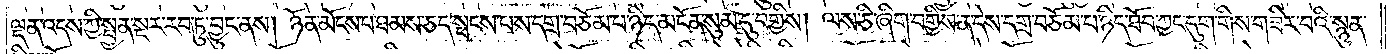ལྡན་འདས་ཀྱི་སྤྱན་སྔར་རབ་ཏུ་བྱུང་ནས། ཉོན་མོངས་པ་ཐམས་ཅད་སྤངས་པས་དགྲ་བཅོམ་པ་ཉིད་མངོན་སུམ་དུ་བགྱིས། ལས་ཅི་ཞིག་བགྱིས་ན་དེས་དགྲ་བཅོམ་པ་ཉིད་ཐོབ་ཀྱང་དུག་གིས་གཟིར་བའི་སྙུན་
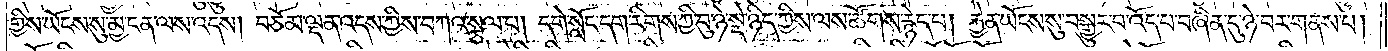གྱིས་ཡོངས་སུ་མྱ་ངན་ལས་འདས། བཅོམ་ལྡན་འདས་ཀྱིས་བཀའ་སྩལ་པ། དགེ་སློང་དག་རིགས་ཀྱི་བུ་ཉེ་སྡེ་ཉིད་ཀྱིས་ལས་ཚོགས་རྙེད་པ། རྐྱེན་ཡོངས་སུ་བསྒྱུར་བ་འོད་པ་བཞིན་དུ་ཉེ་བར་གནས་པ།
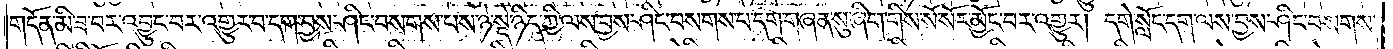གདོན་མི་ཟ་བར་འབྱུང་བར་འགྱུར་བ་དག་བྱས་ཤིང་བསགས་པས་ཉེ་སྡེ་ཉིད་ཀྱི་ལས་བྱས་ཤིང་བསགས་པ་དག་གཞན་སུ་ཞིག་གིས་སོ་སོར་མྱོང་བར་འགྱུར། དགེ་སློང་དག་ལས་བྱས་ཤིང་བསགས་
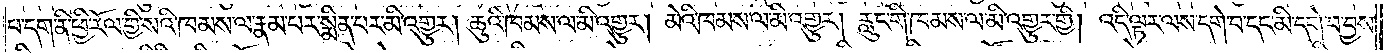པ་དག་ནི་ཕྱི་རོལ་གྱི་སའི་ཁམས་ལ་རྣམ་པར་སྨིན་པར་མི་འགྱུར། ཆུའི་ཁམས་ལ་མི་འགྱུར། མེའི་ཁམས་ལ་མི་འགྱུར། རླུང་གི་ཁམས་ལ་མི་འགྱུར་གྱི། འདི་ལྟར་ལས་དགེ་བ་དང་མི་དགེ་བ་བྱས་
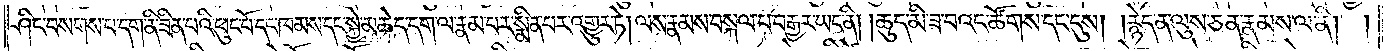ཤིང་བསགས་པ་དག་ནི་ཟིན་པའི་ཕུང་པོ་དང་ཁམས་དང་སྐྱེ་མཆེད་དག་ལ་རྣམ་པར་སྨིན་པར་འགྱུར་ཏེ། ལས་རྣམས་བསྐལ་པ་བརྒྱར་ཡང་ནི། །ཆུད་མི་ཟ་བའང་ཚོགས་དང་དུས། །རྙེད་ན་ལུས་ཅན་རྣམས་ལ་ནི། །
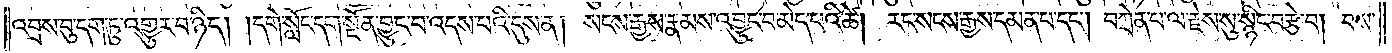འབྲས་བུ་དག་ཏུ་འགྱུར་པ་ཉིད། །དགེ་སློང་དག་སྔོན་བྱུང་བ་འདས་པའི་དུས་ན། སངས་རྒྱས་རྣམས་འབྱུང་བ་མེད་པའི་ཚེ། རང་སངས་རྒྱས་དམན་པ་དང༌། བཀྲེན་པ་ལ་རྗེས་སུ་སྙིང་བརྩེ་བ། བས་
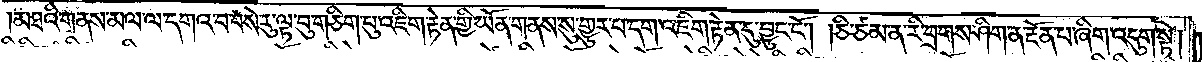མཐའི་གནས་མལ་ལ་དགའ་བ་བསེ་རུ་ལྟ་བུ་གཅིག་པུ་འཇིག་རྟེན་གྱི་ཡོན་གནས་སུ་གྱུར་པ་དག་འཇིག་རྟེན་དུ་བྱུང་ངོ༌། །ཅི་ཙམ་ན་རི་བྲགས་ཤིག་ན་རྔོན་པ་ཞིག་འདུག་སྟེ།
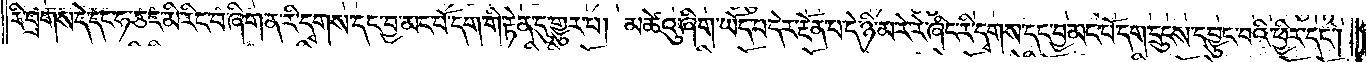རི་བྲགས་དེ་དང་ཧ་ཅང་མི་རིང་བ་ཞིག་ན་རི་དྭགས་དང་བྱ་མང་པོ་དག་གི་རྟེན་དུ་གྱུར་པ། མཚེའུ་ཞིག་ཡོད་པ་དེར་རྔོན་པ་དེ་ཉི་མ་རེ་རེ་ཞིང་རི་དྭགས་དང་བྱ་མང་པོ་དག་དྲུངས་དབྱུང་བའི་ཕྱིར་དང༌།
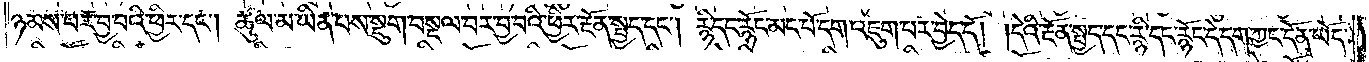ཉམས་པར་བྱ་བའི་ཕྱིར་དང༌། ཚུལ་མ་ཡིན་པས་སྡུག་བསྔལ་བར་བྱ་བའི་ཕྱིར་རྔོན་སྤྱད་དང༌། རྙི་དང་རྙོང་མང་པོ་དག་འཇུག་པར་བྱེད་དོ། །དེའི་རྔོན་སྤྱད་དང་རྙི་དང་རྙིང་དེ་དག་ཀྱང་དོན་ཡོད་
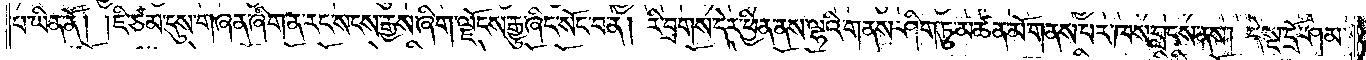པ་ཡིན་ནོ། །ཇི་ཙམ་དུས་གཞན་ཞིག་ན་རང་སངས་རྒྱས་ཞིག་ལྗོངས་རྒྱུ་ཞིང་སོང་བ་ན། རི་བྲགས་དེར་ཕྱིན་ནས་ལྷའི་གནས་ཤིག་ཏུ་མཚན་མོ་གནས་པར་ཁས་བླངས་ནས། དེ་སྔ་དྲོ་ཤམ་
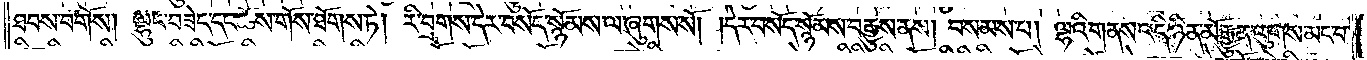ཐབས་བགོས། ལྷུང་བཟེད་དང་ཆོས་གོས་ཐོགས་ཏེ། རི་བྲགས་དེར་བསོད་སྙོམས་ལ་ཞུགས་སོ། །དེར་བསོད་སྙོམས་བརྒྱུས་ནས། བསམས་པ། ལྷའི་གནས་འདི་ཉིན་མོ་རྒྱུན་ལུགས་མང་བ་
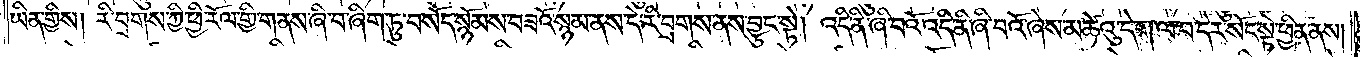ཡིན་གྱིས། རི་བྲགས་ཀྱི་ཕྱི་རོལ་གྱི་གནས་ཞིག་བ་ཞིག་ཏུ་བསོད་སྙོམས་བཟའོ་སྙམ་ནས་དེ་རི་བྲགས་ནས་བྱུང་སྟེ། འདི་ནི་ཞི་བའོ་འདི་ནི་ཞི་བའོ་ཞེས་མཚེའུ་དེ་ག་ལ་བ་དེར་སོང་སྟེ་ཕྱིན་ནས།
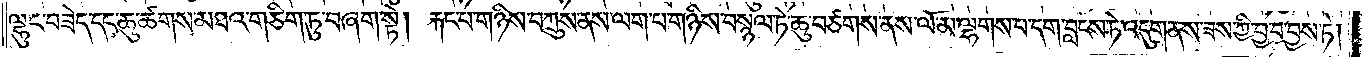ལྷུང་བཟེད་དང་ཆུ་ཚགས་མཐའ་གཅིག་ཏུ་བཞག་སྟེ། རྐང་པ་གཉིས་པ་བཀྲུས་ནས་ལག་པ་གཉིས་བསྙལ་ཏེ་ཆུ་བཙགས་ནས་ལོ་མ་ལྷགས་པ་དག་བླངས་ཏེ་འདུག་ནས་ཟས་ཀྱི་བྱ་བ་བྱས་ཏེ།
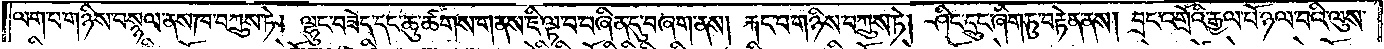ལག་པ་གཉིས་བསྙལ་ནས་ཁ་བཀྲུས་ཏེ། ལྷུང་བཟེད་དང་ཆུ་ཚགས་གནས་ཇི་ལྟ་བ་བཞིན་དུ་བཞག་ནས། རྐང་པ་གཉིས་བཀྲུས་ཏེ། ཤིང་དྲུང་ཞིག་ཏུ་བརྟེན་ནས། བྲང་འགྲོའི་རྒྱལ་པོ་ཉལ་བའི་ལུས་
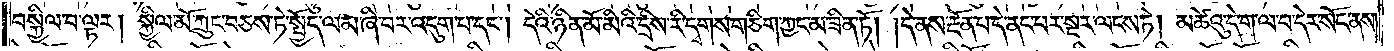བསྐྱིལ་བ་ལྟར། སྐྱིལ་མོ་ཀྲུང་བཅས་ཏེ་སྤྱོད་ལམ་ཞི་བར་འདུག་པ་དང༌། དེའི་ཉིན་མོ་མིའི་དྲིས་རི་དྭགས་གཅིག་ཀྱང་མ་ཟིན་ཏོ། །དེ་ནས་རྔོན་པ་དེ་ནང་པར་སྔར་ལངས་ཏེ། མཚེའུ་དེ་ག་ལ་བ་དེར་སོང་ནས།
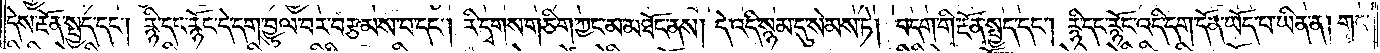དེས་རྔོན་སྤྱད་དང༌། རྙི་དང་རྙིང་དེ་དག་བྱུལ་བར་བརྩམས་པ་དང༌། རི་དྭགས་གཅིག་ཀྱང་མ་མཐོང་ནས། དེ་འདི་སྙམ་དུ་སེམས་ཏེ། བདག་གི་རྔོན་སྤྱད་དང༌། རྙི་དང་རྙིང་འདི་དག་དོན་ཡོད་པ་ཡིན་ན། གང་
